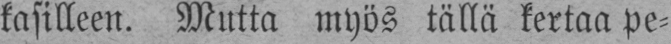kasilleen. Mutta myös tällä kertaa pe-
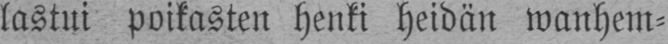lastui poikasten henki heidän wanhem-
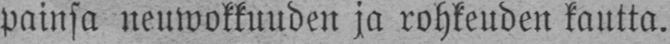painsa neuwokkuuden ja rohkeuden kautta.
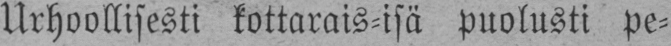Urhoollisesti kottarais-isä puolusti pe-
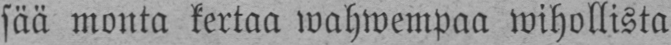sää monta kertaa wahwempaa wihollista
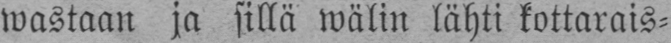wastaan ja sillä wälin lähti kottarais-
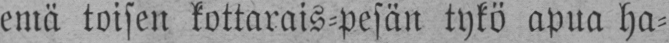emä toisen kottarais-pesän tykö apua ha-
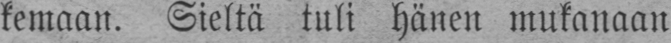kemaan, Sieltä tuli hänen mukanaan
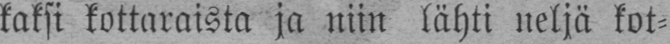kaksi kottaraista ja niin lähti neljä kot-
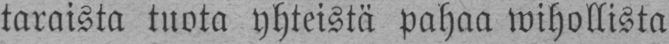taraista tuota yhteistä pahaa wihollista
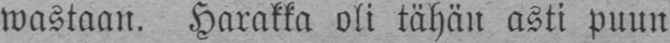wastaan. Harakka oli tähän asti puun
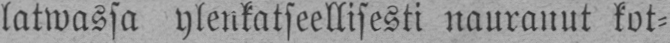latwassa ylenkatseellisesti nauranut kot-
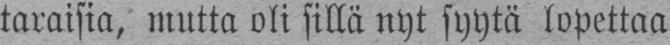taraisia, mutta oli sillä nyt syytä lopettaa
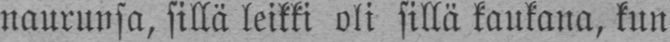naurunsa, sillä leikki oli sillä kaukana, kun
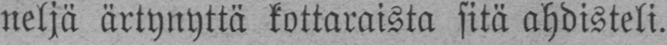neljä ärtynyttä kottaraista sitä ahdisteli.
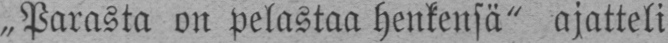„Parasta on pelastaa henkensä" ajatteli
